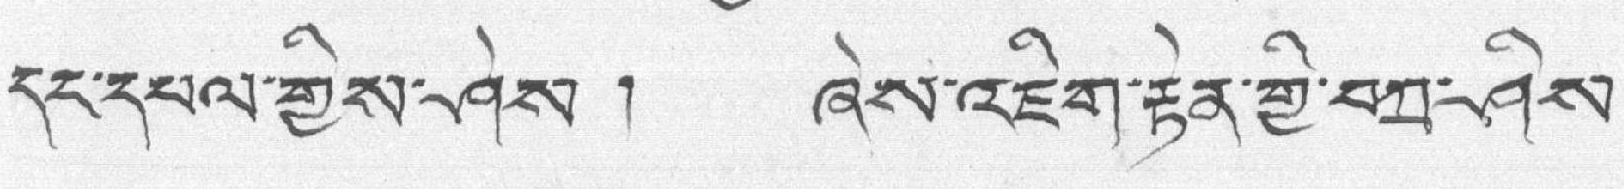དང་དཔལ་གྱིས་ཤེས ། ཞེས་འཇིག་རྟེན་གྱི་བཀྲ་ཤིས་
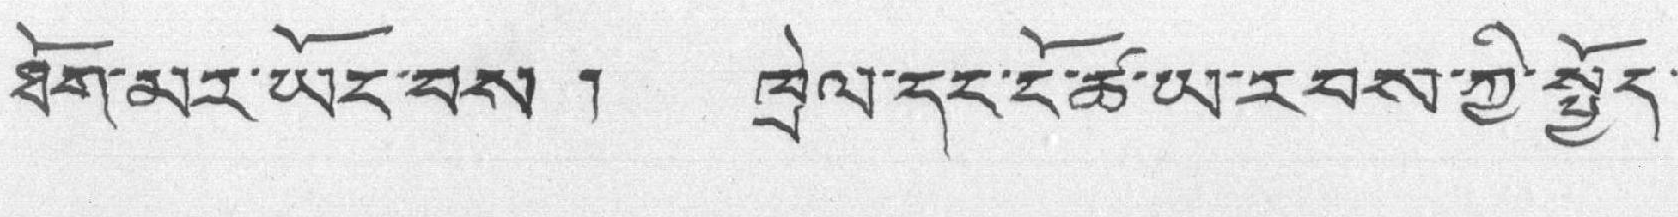ཐོག་མར་ཡོང་བས ། ཁྲེལ་དར་ངོ་ཚ་ཡ་རབས་ཀྱི་སྦྱོར་
